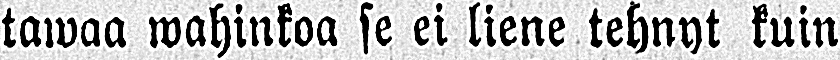tawaa wahinkoa se ei liene tehnyt kuin
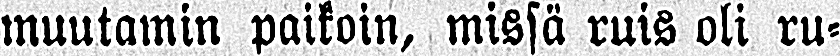muutamin paikoin, missä ruis oli ru-
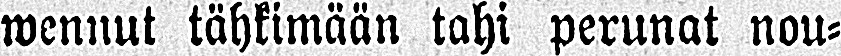wennut tähkimään tahi perunat nou-
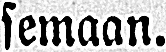semaan.
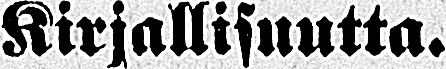Kirjallisuutta.
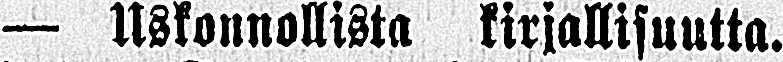— Uskonnollista kirjallisuutta.
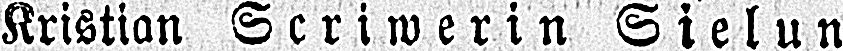Kristian Scriwerin Sielun
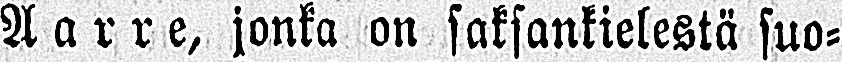Aarre, jonka on saksankielestä suo-
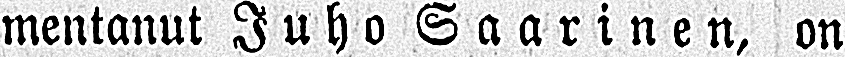mentanut Juho Saarinen, on
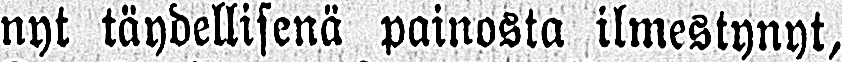nyt täydellisenä painosta ilmestynyt,
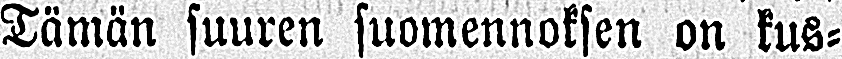Tämän suuren suomennoksen on kus-
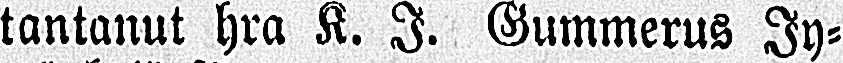tantanut hra K. I. Gummerus Jy-
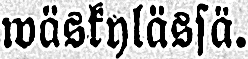wäskylässä.
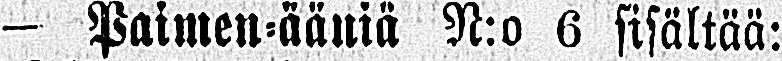- Paimen-ääniä N:o 6 sisältää:
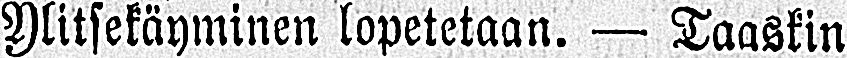Ylitsekäyminen lopetetaan. — Taaskin
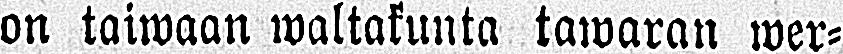on taiwaan waltakunta tawaran wer-
